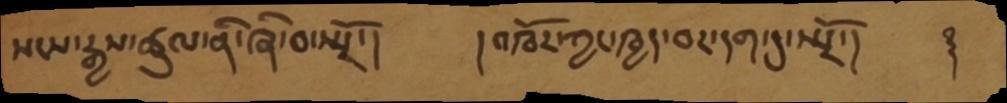སངས་རྒྱས་ཚུལ་ནི་ཞི་བ་སྤྲོ་ །        ། འཁོར་ཀྱང་ཁྱད་བར་དག་དུ་སྤྲོ་།          ࿑
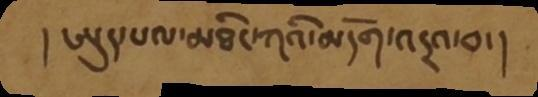།  ཨུད་པལ་མཐིང་ཀའི་མདོག་འདྲའ་བ་ །
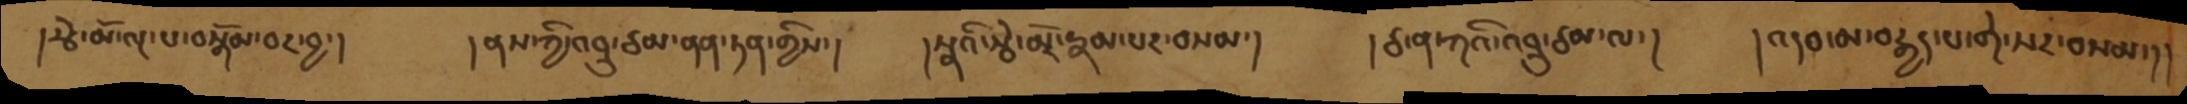། རྩེ་མོ་ལྔ་པ་བསྒོམ་བར་བྱ་།      །ནས་ཀྱི་འབྲུ་ཙམ་ནན་ཏན་གྱིས་།   ། སྣའི་རྩེ་མོར་རྣམ་པར་བསམ་།    །ཙ་ན་ཀའི་འབྲུ་ཙམ་ལ་།    ། འདབ་མ་བརྒྱད་པ་གེ་སར་བསམ་།།
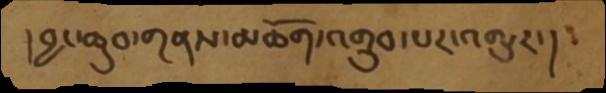། བྱང་ཆུབ་གནས་མཆོག་འགྲུབ་པར་འགྱུར་།
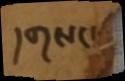།གསང་
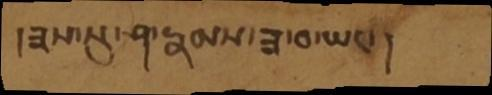།ཟས་སུ་ཤ་རྣམས་ཟ་བ་ཡང་།
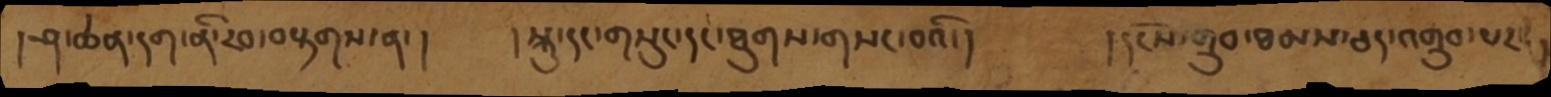།ཤ་ཆེན་དག་ནི་རབ་བརྟགས་ན་།  །སྐུ་དང་གསུང་དང་ཐུགས་གསང་བའི་།  །དངོས་གྲུབ་ཐམས་ཅད་འགྲུབ་པར་
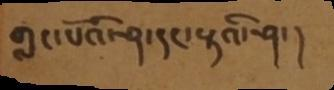གླང་པོའི་ཤ་དང་རྟའི་ཤ་།
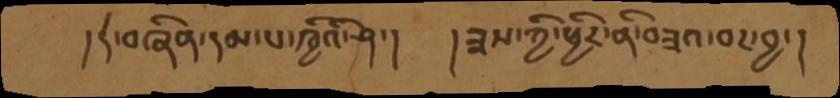།དེ་བཞིན་དམ་པ་ཁྱིའི་ཤ་།  །ཟས་ཀྱི་ཕྱིར་ནི་བཟའ་བར་བྱ་།
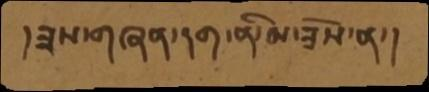།ཟས་གཞན་དག་ནི་མ་ཟོས་ན་།
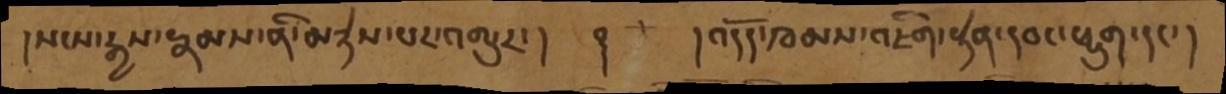། སངས་རྒྱས་རྣམས་ནི་མཉེས་པར་འགྱུར་།    ࿑  ། འདོད་ཁམས་འཇིག་རྟེན་དབང་ཕྱུག་དང་།
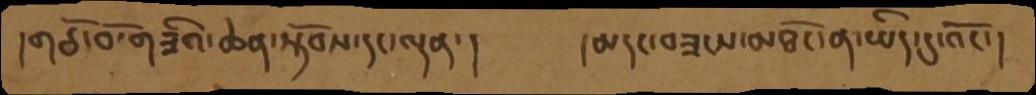། གཙོ་བོ་གཟིའ་ཆེན་སྟོབས་དང་ལྡན་།     ། མདང་བཟངས་མཐོང་ན་ཡིད་དུ་འོང་།
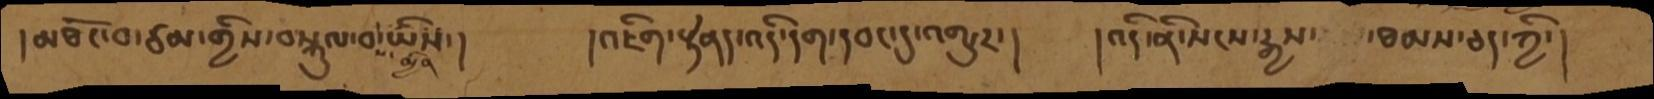།མཐོང་བ་ཙམ་གྱིས་བསྐུལ་བ་ཡིས་།   །འཇིག་རྟེནད་འདི་དག་དབང་དུ་འགྱུར་།   །འདི་ནི་སངས་རྒྱས་ཐམས་ཅད་ཀྱི་།
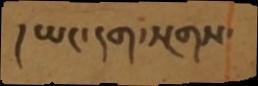།  ཡང་དག་སྔགས་
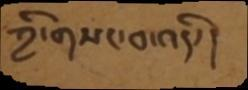ཀྱི་གསང་བ་འདི་།
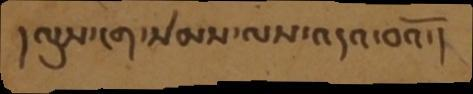།  ལུས་ངག་སེམས་ལས་འདའ་བའོ་།
